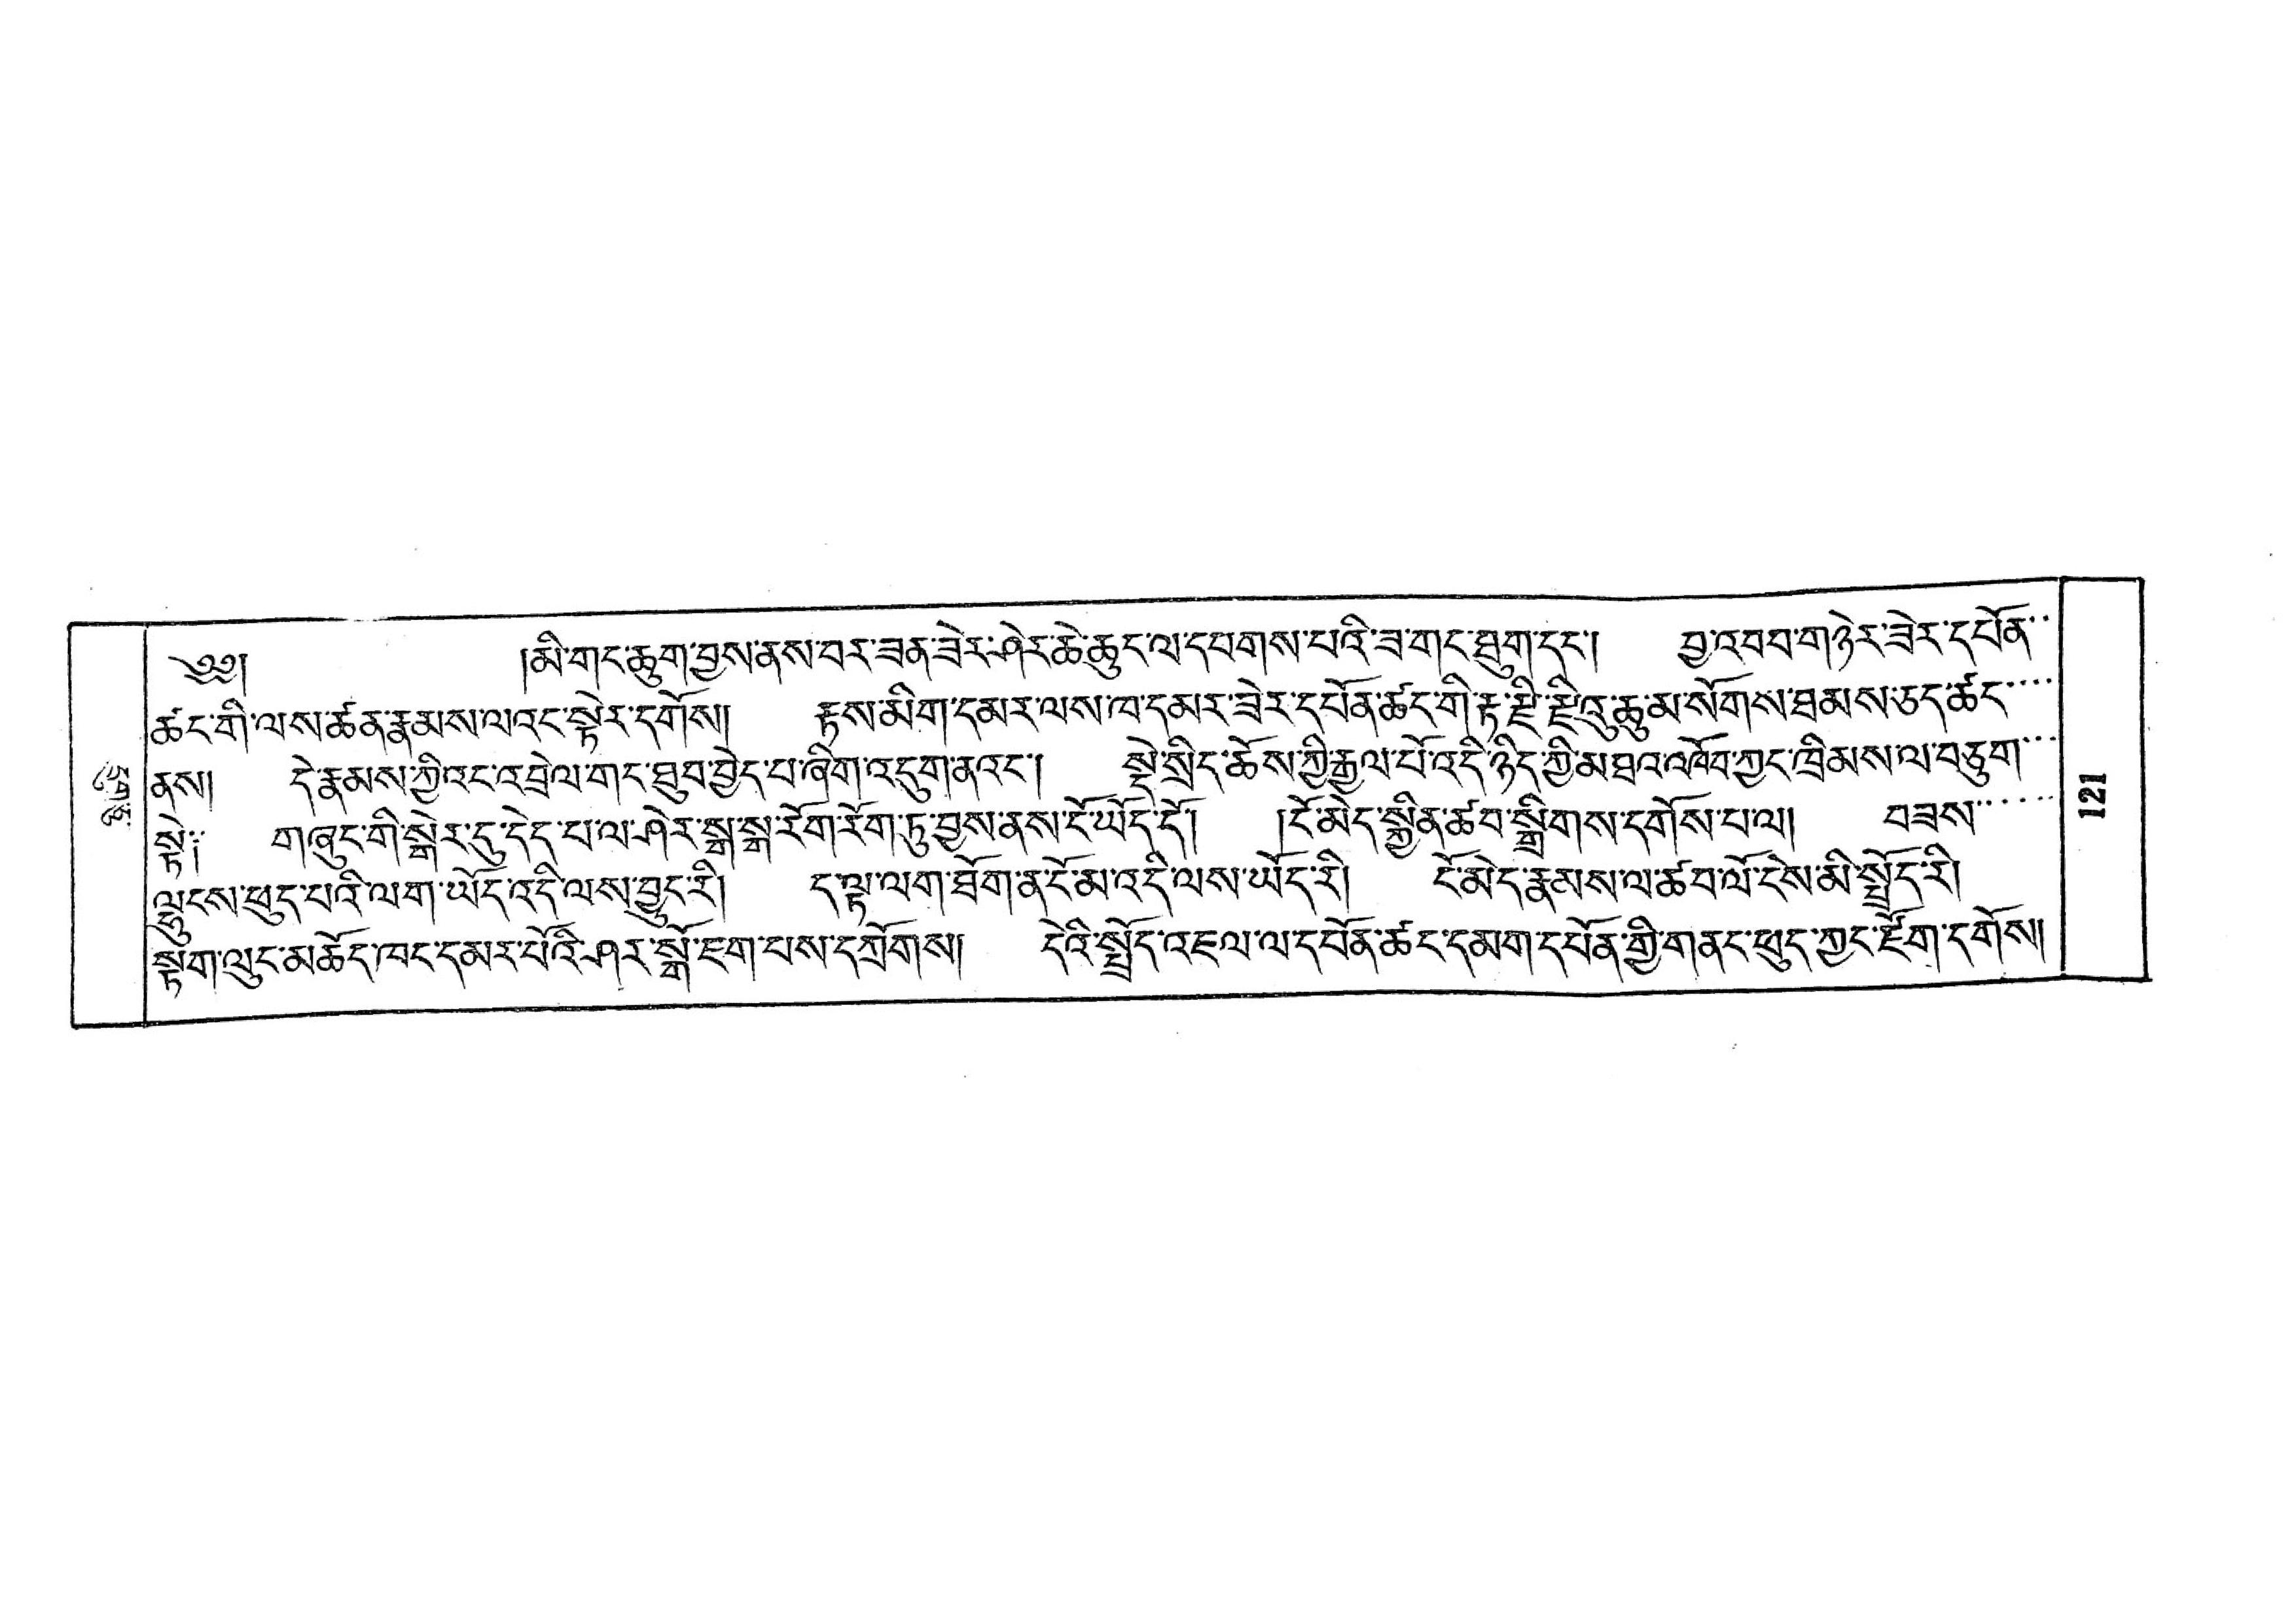དུག་ཅུ་
༄༅།  །མི་གང་ཆུག་བྱས་ནས་བར་ཟན་ཟེར་ཤེར་ཆེ་ཆུང་ལ་དབགས་པའི་ཟ་གང་ཐུག་དང་། བྱ་འབབ་གཉེར་ཟེར་དཔོན་་
ཚང་གི་ལས་ཚན་རྣམས་ལའང་སྟེར་དགོས། རྟས་མིག་དམར་ལས་ཁ་དམར་ཟེར་དཔོན་ཚང་གི་རྟ་རྗི་རྗིའུ་ཆུ་མ་སོགས་ཐམས་ཅད་ཚང་་་་
ནས། དེ་རྣམས་ཀྱི་འང་འབྲེལ་གང་ཐུབ་བྱེད་པ་ཞིག་འདུག་ནའང་། སྡེ་སྲིད་ཆོས་ཀྱི་རྒྱལ་པོའདི་ཉིད་ཀྱི་མཐའ་འཁོབ་ཀྱང་ཁྲིམས་ལ་བཅུག་་་
སྟེ༑ གཞུང་གི་སྒེར་དུ་དེད་པ་ལ་ཤེར་སྒ་སྒ་རོག་རོག་ཏུ་བྱས་ནས་ངོ་ཡོད་དོ། །ངོ་མེད་སྐྱིན་ཚབ་སྒྲིགས་དགོས་པ་ལ། བཟས་་་་་
ལྷུངས་ཕུད་པའི་ལག་ཡོད་འདི་ལས་བྱུང་རི། ད་ལྟ་ལག་ཐོག་ན་ངོ་མ་འདི་ལས་ཡོད་རི། ངོ་མེད་རྣམས་ལ་ཚབ་ལོ་ངེས་མི་སྤྲོད་རི།
སྟོག་ལུང་མཆོད་ཁང་དམར་པོའི་ཤར་སྒོ་ཇག་པས་དཀྲོགས། དེའི་སྤྲོད་འཇལ་ལ་དཔོན་ཚང་དམག་དཔོན་གྱི་གནང་ཕུད་ཀྱང་རྫོག་དགོས།
